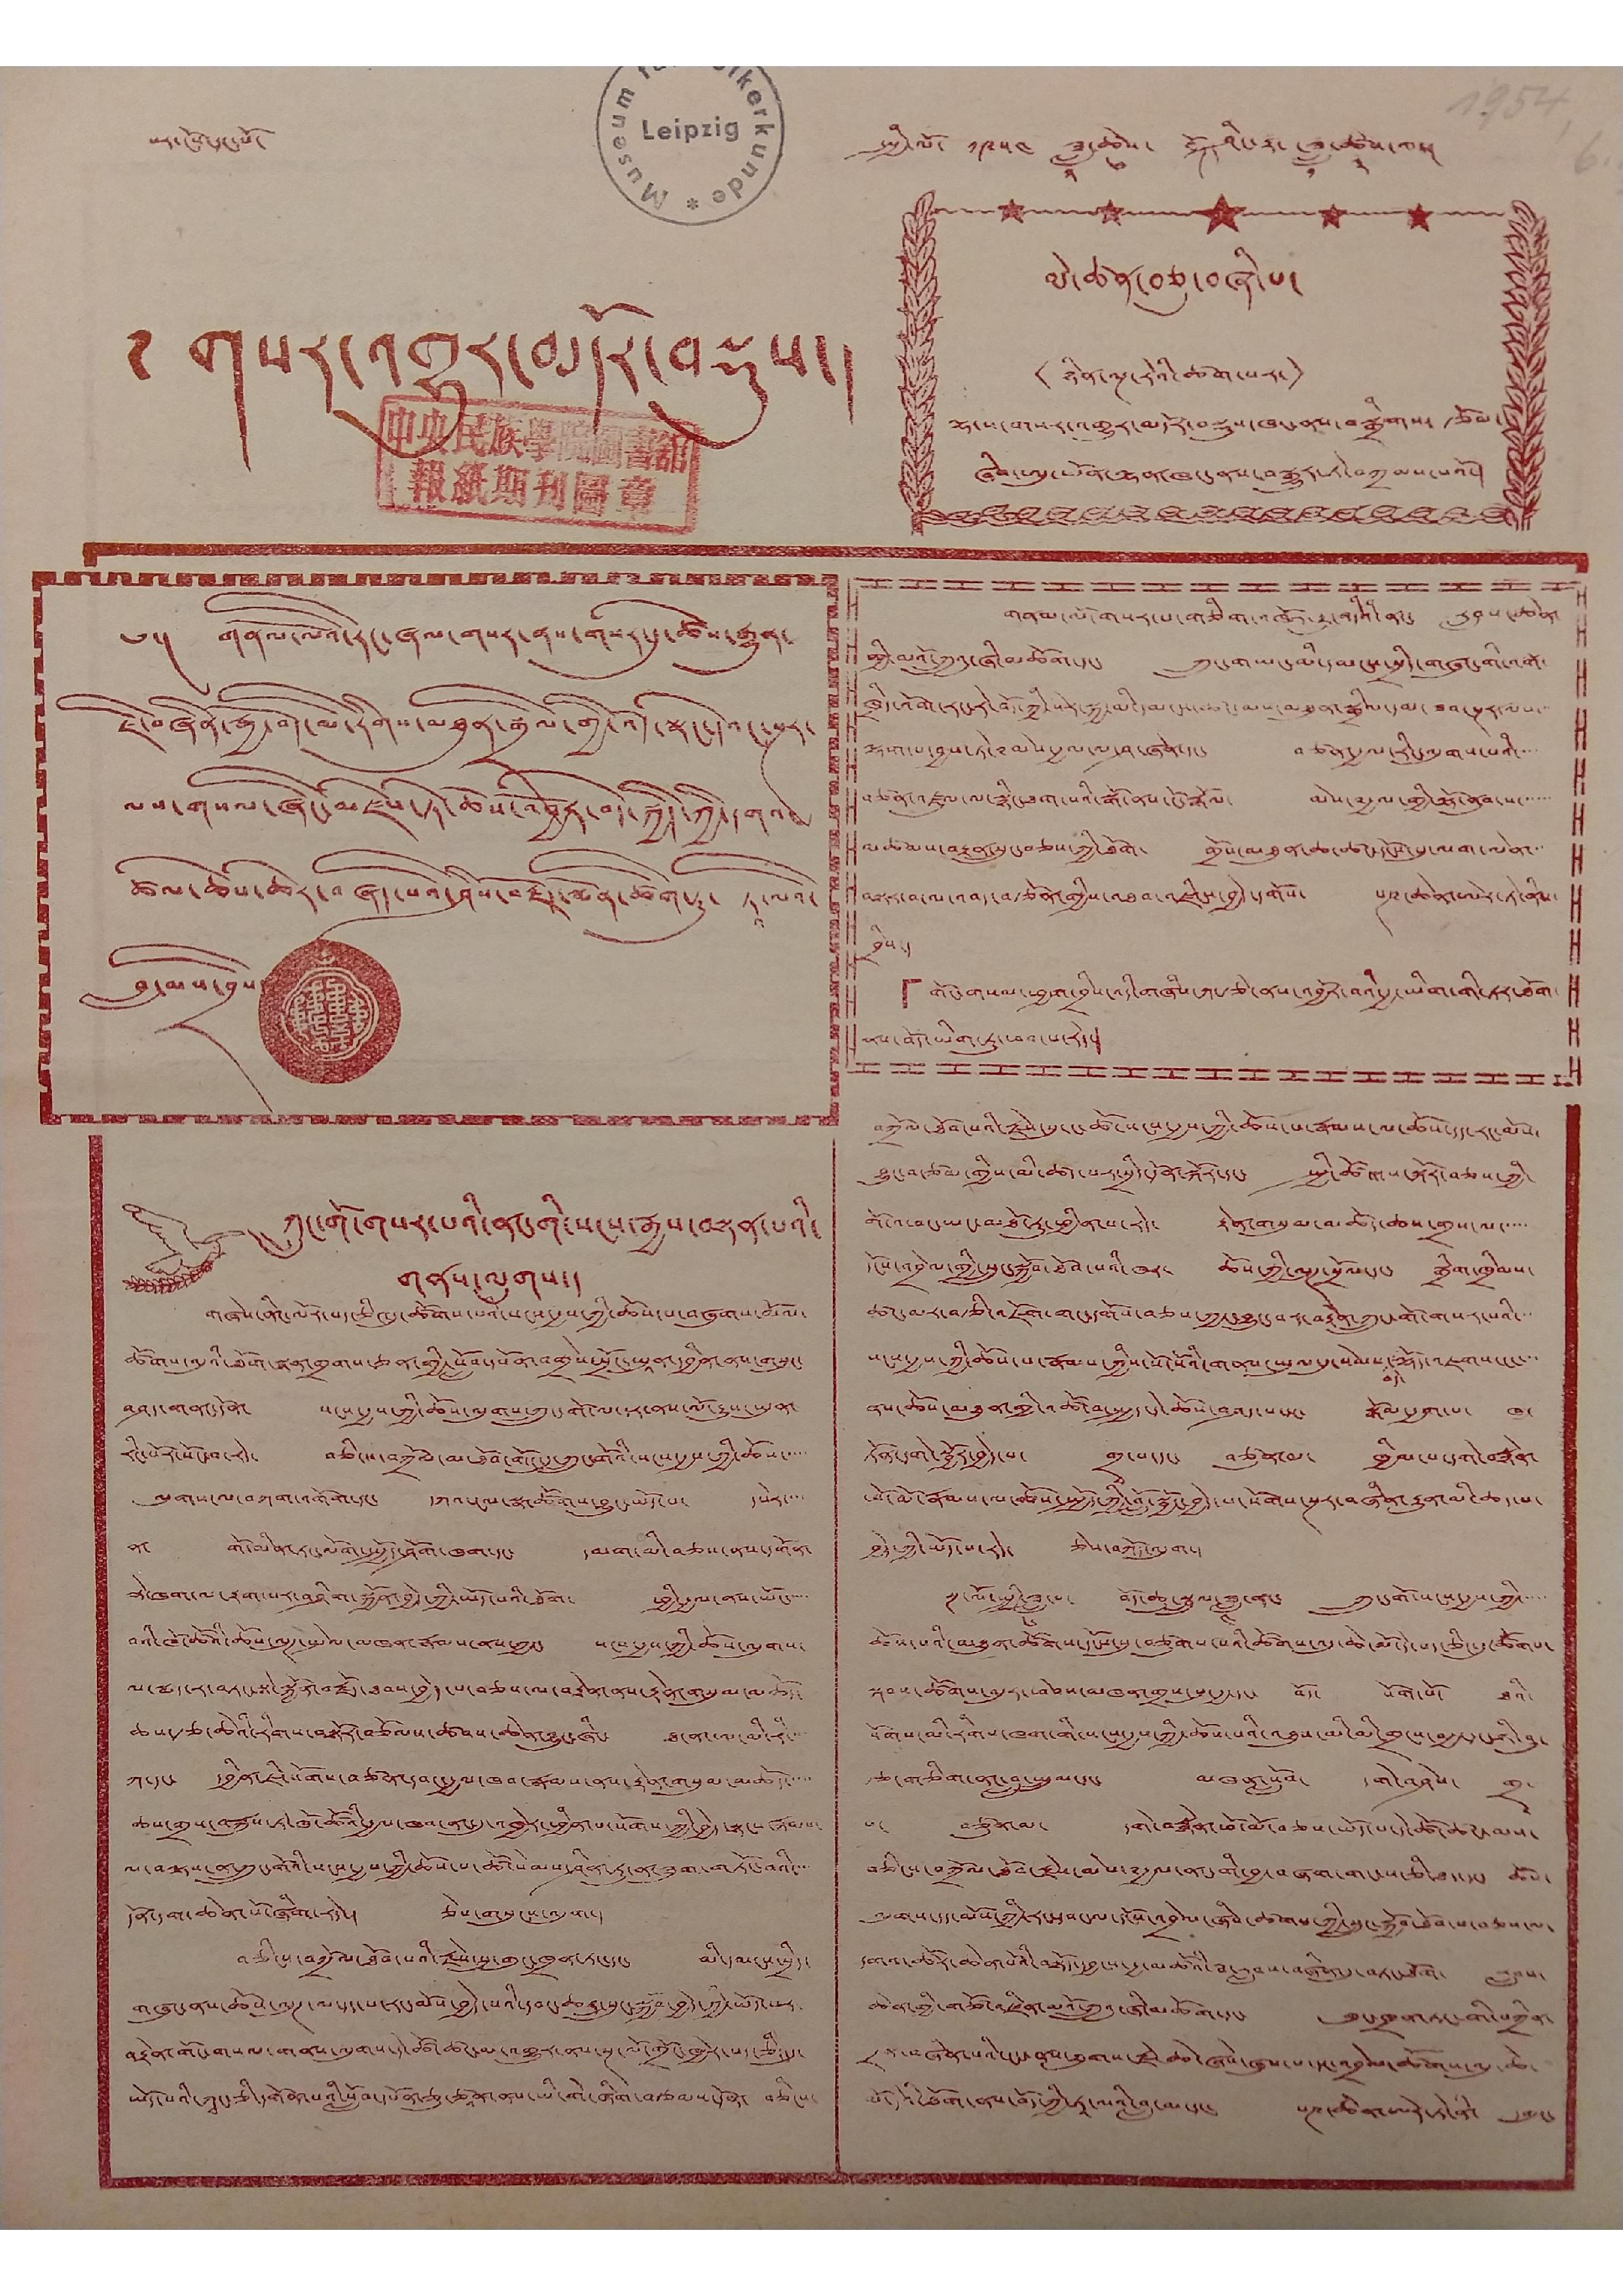པར་ངོས་དང་པོ་ སྤྱི་ལོ་ ༡༩༥༤ ཟླ་
༢
ཚེས་
༦
བོད་ཤིང་རྟ་ཟླ་
༡
ཚེས་
༣
ལ་།
༅ གསར་འགྱུར་མདོར་བསྡུས་།
ལེ་ཚན་བཅུ་བཞི་པ་
<ཉིན་ལྔ་རེའི་ཚག་པར་>
ལྷ་ས་གསར་འགྱུར་མདོར་བསྡུས་ཁང་ནས་བསྒྲིགས་རྩོམ་
ཞིབ་ཨུ་ཡོན་ལྷན་ཁང་ནས་བསྒྱུར་ཏེ་བཀྲམས་པའོ་།
༄། གནམ་ལོའི་རང་ཞལ་གསར་ནས་གསར་དུ་ཚེས་རྒྱུན་
ཇི་བཞིན་རྒྱ་བོད་མི་རིགས་མཐུན་སྒྲིལ་གྱི་འོད་སྣང་དེའང་སྔར་
ལས་གསལ་ཞིང་མཛེས་ཏེ་ཆོས་འབྱོར་བདེ་སྐྱིད་ཀྱི་དགའ་
ཚལ་ཆེས་ཆེར་བཞད་པའི་ཤེས་བརྗོད་སྨོན་ཚིག་ཏུ་ ཏཱ་ལའི་
བླ་མས་བྲིས་
གནམ་ལོ་གསར་པ་གཅིག་འཁོར་རྒྱུ་འདིའི་ནང་ རླབས་ཆེན་
གྱི་མའོ་ཀྲུའུ་ཞི་མཆོག་དང་ ཀྲུང་གཡང་མི་དམངས་སྲིད་གཞུང་གི་འགོ་
ཁྲིད་འོག་རང་རེ་བོད་ཀྱི་སེར་སྐྱ་མི་དམངས་ཚང་མས་མཐུན་སྒྲིལ་དམ་ཟབ་སྔར་ལས་
ལྷག་པ་བྱས་ཏེ་མེས་རྒྱལ་ལ་ཤ་ཞེན་དང་ བཙན་རྒྱལ་རིང་ལུགས་པའི་་་
བཙན་འཛུལ་ལ་སྙིང་ཐག་པའི་སྒོ་ནས་ངོ་རྒོལ་ མེས་༸རྒྱལ་གྱི་ལྷོ་ནུབ་ས་་་་་
མཚམས་བརྟན་སུང་བཅས་ཀྱི་ཐོག་ གྲོས་མཐུན་ཆ་ཚང་དངོས་སུ་ལག་ལེན་་་
བསྟར་བ་ལ་འབད་བརྩོན་གྱིས་འཐབ་འཛིངས་བྱེད་དགོས་ པཎ་ཆེན་ཨེར་ཏེ་ནིས་
བྲིས་།
「གོང་གསལ་ཕྱག་བྲིས་འདི་གཞིས་ཀ་རྩེ་ནས་འབྱོར་བའི་རྒྱ་ཡིག་གི་ཏར་ཐོག་
ནས་བོད་ཡིག་ཏུ་ཕབ་པ་རེད་།
ཀྲུང་གོ་གསར་པའི་ནང་གི་སངས་རྒྱས་བསྟན་པའི་
གནས་ལུགས་།
གཞེས་ནིང་ལོར་པད་ཅིང་དུ་ཚོགས་པའི་སངས་རྒྱས་ཀྱི་ཆོས་པ་བཞུགས་མོལ་
ཚོགས་འདུའི་ཐོག་སྙན་གྲགས་ཅན་གྱི་སློབ་དཔོན་བགྲེས་སྲོང་ཡཱུན་དབྱིན་ནས་གསུང་
བཤད་གནང་དོན་ སངས་རྒྱས་ཀྱི་ཆོས་ལུགས་ཀྲུང་གོ་ལ་དར་ནས་ལོ་རྒྱུས་ཡུན་
རིང་པོར་སོང་བ་རེད་ བཅིངས་བཀྲོལ་མ་ཐོབ་གོང་དུ་ཀྲུང་གོའི་སངས་རྒྱས་ཀྱི་ཆོས་་་་་
ལུགས་ལ་བཀའ་འགོག་དང་ དཀའ་ངལ་སྣ་ཚོགས་བྱུང་ཡོད་པ་ དཔེར་་་་
ན་ གོ་མིན་ཏང་ལོག་སྤྱོད་ཤོག་ཁག་དང་ དམག་མི་བཅས་ནས་དགོན་
སྡེ་ཁག་ལ་རྟག་པར་བཤིག་སྐྱོན་བྱེད་ཀྱི་ཡོད་པའི་ཐོག་ ཕྱི་རྒྱལ་ནས་ཡོང་་་་་
བའི་ཁོ་ཚོའི་ཆོས་ལུཊ་སྤེལ་མཁན་རྣམས་ནས་ཀྱང་ སངས་རྒྱས་ཀྱི་ཆོས་ལུགས་
ལ་རྨད་ར་བཏང་སྟེ་སྐྱོན་བརྗོད་ཐབས་བྱེད་པ་བཅས་ལ་བརྟེན་ནས་རྟེན་གསུམ་མཆོད་
ཆས་རྩ་ཆེའི་རིགས་བསྟོར་བཅོམས་ཚབས་ཆེན་བྱུང་ཞིང་ ཐ་ན་ཨ་མི་རི་་་་
ཀ་དང་ དབྱིན་ཇི་སོགས་བཙན་དབང་རྒྱལ་ཁབ་རྣམས་ནས་རྟེན་གསུམ་མཆོད་་་་་
ཆས་གྲས་བརྐུས་ཏེ་ཁོ་ཚོའི་རྒྱལ་ཁབ་ནང་དུ་འཁྱེར་ཕྱིན་པ་སོགས་ཀྱི་བྱེད་སྟངས་རྣམས་
ལ་བལྟས་ན་ཀྲུང་གོའི་སངས་རྒྱས་ཆོས་པ་ཚོ་སེམས་ཤིན་ཏུ་ན་ཟུག་གཏོང་བའི་་་་
དོན་དག་ཆེན་པོ་ཞིག་རེད་། ཅེས་གསུངས་འདུག་།
བཅིངས་བཀྲོལ་ཐོབ་པའི་རྗེས་སུ་གུང་ཁྲན་ཏང་དང་ མི་དམངས་སྲིད་
གཞུང་ནས་ཆོས་ལུཊ་ལ་དད་པ་རང་མོས་བྱེད་པའི་དབང་ཆ་སྲུང་སྐྱོབ་བྱེད་ཀྱི་ཡོད་པར་
བརྟེན་གོང་གསལ་གནས་ལུགས་དེ་ཚོ་ཚང་མ་འགྱུར་ནས་སྔ་ལོ་གྲོང་ཁྱེར་པད་ཅིང་དུ་
ཡོད་པའི་ཀྭང་ཅི་དགོན་པའི་སློབ་དཔོན་ཅུ་རྩཱན་ནས་ཡི་གེ་ཞིག་བརྩམས་དོན་ བཅིངས་
བཀྲོལ་ཐོབ་པའི་རྗེས་སུ་ང་ཚོ་སངས་རྒྱས་ཀྱི་ཆོས་པ་རྣམས་ལ་ཆོས་དད་རང་མོས་
བྱུང་བ་ཙམ་གྱིས་མི་ཚད་པར་སྲིད་དོན་སྐོར་དང་ སྤྱི་ཚོགས་སྐོར་བཅས་ཀྱི་
གོ་འཕང་ཡང་མཐོ་རུ་ཕྱིན་པ་རེད་ རྟེན་གསུམ་མཆོད་ཆས་གྲས་ལ་་་་་
དངོས་འབྲེལ་གྱི་སྲུང་སྐྱོབ་ཐོབ་པའི་ཁར་ ཆོས་ཀྱི་ལུཊ་སྲོལ་དང་ སྒྲིག་ཁྲིམས་
ཚང་མར་བརྩི་འཇོག་གང་དགོས་བཅས་ཀྱང་བྱུང་བར་བརྟེན་ཀྲུང་གོ་གསར་པའི་་
སངས་རྒྱས་ཀྱི་ཆོས་པ་རྣམས་ཀྱིས་སོ་སོའི་གནས་ཡུལ་དུ་སེམས་
བདེ་
ལྷོད་འཇགས་ངང་་་
ནས་ཆོས་མཐུན་གྱི་འཚོ་བ་སྤྱད་དེ་ཆོས་བཤད་པ་དང་ སྒོམ་རྒྱག་པ་ ཁ་
ཏོན་དགེ་སྦྱོར་བྱེད་པ་ གྲྭ་པ་དང་ བཙུན་མ་ ཁྱིམ་པ་དགེ་བསྙེན་
ཕོ་མོ་རྣམས་ལ་ཆོས་སྤྱོད་ཀྱི་བློ་སྦྱོང་བྱེད་པ་སོགས་སྔར་བཞིན་རྒྱུན་མི་ཆད་པ་
བྱེད་ཀྱི་ཡོད་པ་རེད་ ཅེས་བཀོད་འདུག་།
སྔ་ལོ་སྤྱི་ཟླ་
༦
པ་ བོད་ཆུ་སྦྲུལ་ཟླ་
༤
ནང་ ཀྲུང་གོ་སངས་རྒྱས་ཀྱི་་་་་
ཆོས་པའི་མཐུན་ཚོགས་དངོས་སུ་བཙུགས་པའི་ཚོགས་འདུ་ཆེ་མོ་དེ་པད་ཅིང་དུ་ཚོགས་
སྐབས་ཚོགས་འདུར་ཕེབས་མཁན་གྲས་སུ་རྒྱ་དང་ བོད་ སོག་པོ་ ཐའི་
སོགས་མི་རིགས་ཁག་གི་སངས་རྒྱས་ཀྱི་ཆོས་པའི་འཐུས་མི་མི་གྲངས་བརྒྱ་དང་ཉི་ཤུ་
རྩ་གཅིག་ནང་བླུ་སྤྲུལ་དང་ མཁན་སློབ་ དགེ་བཤེས་ གྲྭ་
པ་ བཙུན་མ་ དགེ་བརྙེན་ཕོ་མོ་བཅས་ཡོད་པ་དེ་ཚོ་ཚང་མས་
བཅིངས་བཀྲོལ་ཐོབ་རྗེས་མེས་༸རྒྱལ་ནང་གི་བྱ་བ་བཞག་གང་ས་ཅི་ཐད་དང་ ཆོས་
ལུགས་དད་མོས་ཀྱི་རང་དབང་ལ་དངོས་འབྲེལ་ཞིབ་ཚགས་ཀྱི་སྲུང་སྐྱོབ་ཐོབ་པ་བཅས་ལ་
དགའ་ཚོར་ཆེན་པོའི་བསྟོད་དབྱངས་རྒྱ་མཚོའི་རྦ་རླབས་བཞིན་དུ་བཏང་ཐོག་ རླབས་
ཆེན་གྱི་གཙོ་འཛིན་མའོ་ཀྲུའུ་ཞི་མཆོག་དང་ གུང་ཁྲན་ཏང་གི་བཀྲིན་
དྲན་བཞིན་པའི་ངང་ནས་ཐུགས་རྗེ་ཆེ་ཞེས་ཞུས་པ་དང་འབྲེལ་ཚོགས་འདུ་ཆེ་
པོ་དེའི་ཐོག་ནས་བོད་ཀྱི་ཏཱ་ལའི་བླ་མ་དང་ པཎ་ཆེན་ཨེར་ཏེ་ནི་ དགུང་
